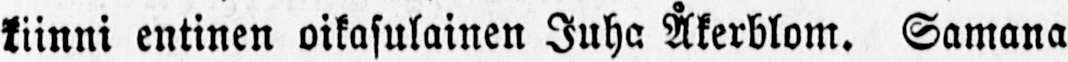kiinni entinen oikasulainen Juha Åkerblom. Samana
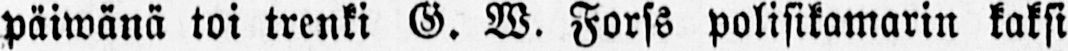päiwänä toi trenki G. W. Forss polisikamarin kaksi
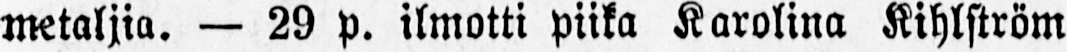metaljia. — 29 p. ilmotti piika Karolina Kihlström
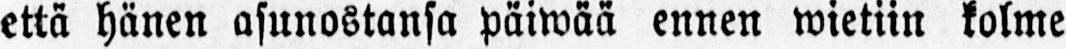että hänen asunostansa päiwää ennen wietiin kolme
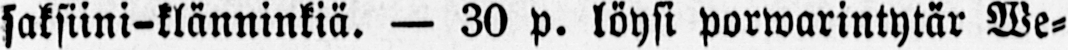saksiini-klänninkiä. — 30 p. löysi porwarintytär We-
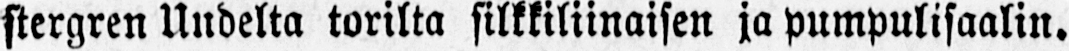stergren Uudelta torilta silkkiliinaisen ja pumpulisaalin.
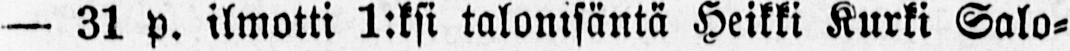— 31 p. ilmotti 1:ksi talonisäntä Heikki Kurki Salo-
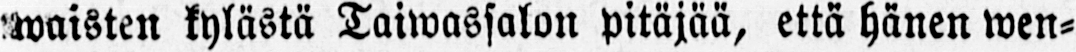waisten kylästä Taiwassalon pitäjää, että hänen wen-
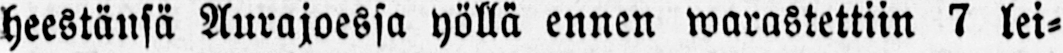heestänsä Aurajoessa yöllä ennen warastettiin 7 lei-
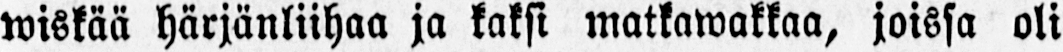wiskää härjänliihaa ja kaksi matkawakkaa, joissa oli
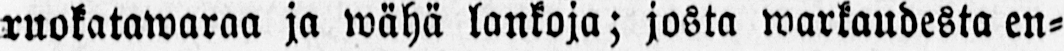ruokatawaraa ja wähä lankoja; josta warkaudesta en-
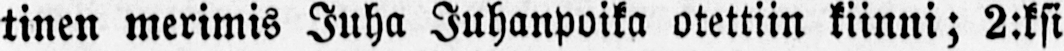tinen merimis Juha Juhanpoika otettiin kiinni; 2:ksi
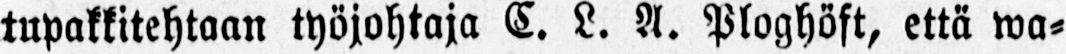tupakkitehtaan työjohtaja C. L. A. Ploghöft, että wa-
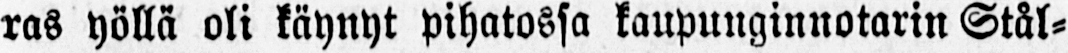ras yöllä oli käynyt pihatossa kaupunginnotarin Stål-
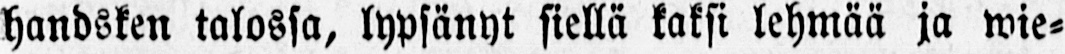handsken talossa, lypsänyt siellä kaksi lehmää ja wie-
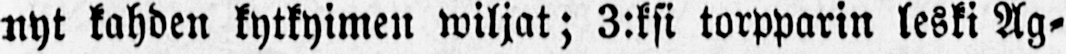nyt kahden kytkyimen wiljat; 3:ksi torpparin leski Ag-
